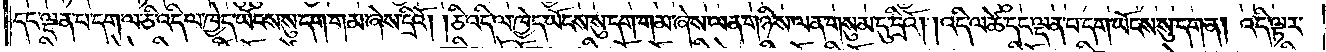དང་ལྡན་པ་དག་ལ་ཅི་འདི་ལ་ཁྱེད་ཡོངས་སུ་དག་གམ་ཞེས་དྲིའོ། །ཅི་འདི་ལ་ཁྱེད་ཡོངས་སུ་དག་གམ་ཞེས་ལན་གཉིས་ལན་གསུམ་དུ་དྲིའོ། །འདི་ལ་ཚེ་དང་ལྡན་པ་དག་ཡོངས་སུ་དག་ན། འདི་ལྟར་
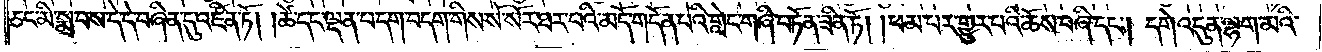ཅང་མི་སྨྲ་བས་དེ་དེ་བཞིན་དུ་འཛིན་ཏོ། །ཚེ་དང་ལྡན་པ་དག་བདག་གིས་སོ་སོར་ཐར་པའི་མདོ་གདོན་པའི་གླེང་གཞི་བཏོན་ཟིན་ཏོ། །ཕམ་པར་གྱུར་པའི་ཆོས་བཞི་དང༌། དགེ་འདུན་ལྷག་མའི་
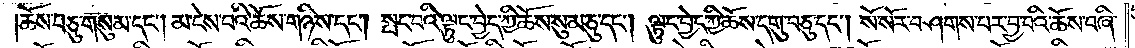ཆོས་བཅུ་གསུམ་དང༌། མ་ངེས་པའི་ཆོས་གཉིས་དང༌། སྤང་བའི་ལྟུང་བྱེད་ཀྱི་ཆོས་སུམ་ཅུ་དང༌། ལྟུང་བྱེད་ཀྱི་ཆོས་དགུ་བཅུ་དང༌། སོ་སོར་བཤགས་པར་བྱ་བའི་ཆོས་བཞི་
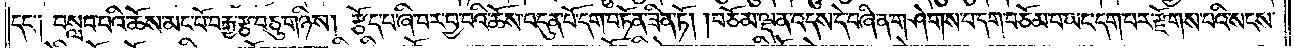དང༌། བསླབ་པའི་ཆོས་མང་པོ་བརྒྱ་རྩ་བཅུ་གཉིས། རྩོད་པ་ཞི་བར་བྱ་བའི་ཆོས་བདུན་པོ་དག་བཏོན་ཟིན་ཏོ། །བཅོམ་ལྡན་འདས་དེ་བཞིན་གཤེགས་པ་དགྲ་བཅོམ་པ་ཡང་དག་པར་རྫོགས་པའི་སངས་
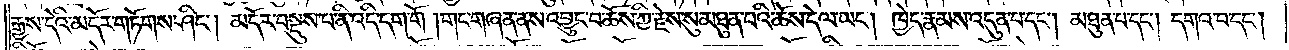རྒྱས་དེའི་མདོར་གཏོགས་ཤིང༌། མདོར་བསྡུས་པ་ནི་འདི་དག་གོ །གང་གཞན་ནས་འབྱུང་བ་ཆོས་ཀྱི་རྗེས་སུ་མཐུན་པའི་ཆོས་དེ་ལ་ཡང༌། ཁྱེད་རྣམས་འདུན་པ་དང༌། མཐུན་པ་དང༌། དགའ་བ་དང༌།
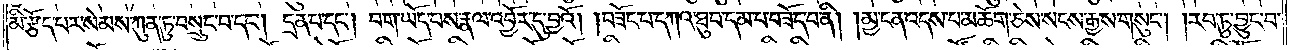མི་རྩོད་པར་སེམས་ཀུན་ཏུ་བསྲུང་བ་དང༌། དྲན་པ་དང༌། བག་ཡོད་པས་རྣལ་འབྱོར་དུ་བྱའོ། །བཟོད་པ་དཀའ་ཐུབ་དམ་པ་བཟོད་པ་ནི། །མྱ་ངན་འདས་པ་མཆོག་ཅེས་སངས་རྒྱས་གསུང༌། །རབ་ཏུ་བྱུང་བ་
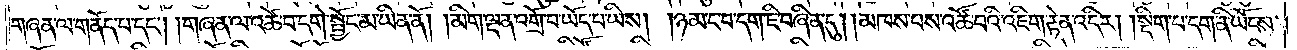གཞན་ལ་གནོད་པ་དང༌། །གཞན་ལ་འཚེ་བ་དགེ་སྦྱོང་མ་ཡིན་ནོ། །མིག་ལྡན་འགྲོ་བ་ཡོད་པ་ཡིས། །ཉམ་ང་བ་དག་ཇི་བཞིན་དུ། །མཁས་པས་འཚོ་བའི་འཇིག་རྟེན་འདིར། །སྡིག་པ་དག་ནི་ཡོངས་
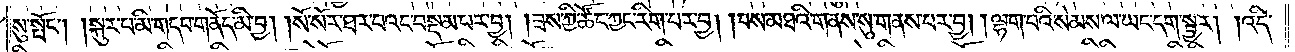སུ་སྤོང༌། །སྐུར་པ་མི་གདབ་གནོད་མི་བྱ། །སོ་སོར་ཐར་པའང་བསྡམ་པར་བྱ། །ཟས་ཀྱི་ཚོད་ཀྱང་རིག་པར་བྱ། །བས་མཐའི་གནས་སུ་གནས་པར་བྱ། །ལྷག་པའི་སེམས་ལ་ཡང་དག་སྦྱར། །འདི་
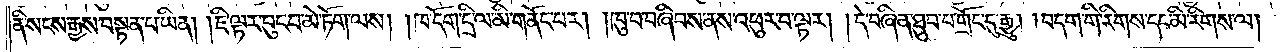ནི་སངས་རྒྱས་བསྟན་པ་ཡིན། །ཇི་ལྟར་བུང་བ་མེ་ཏོག་ལས། །ཁ་དོག་དྲིལ་མི་གནོང་པར། །ཁུ་བ་བཞིབས་ནས་འཕུར་བ་ལྟར། །དེ་བཞིན་ཐུབ་པ་གྲོང་དུ་རྒྱུ། །བདག་གི་རིགས་དང་མི་རིགས་ལ།
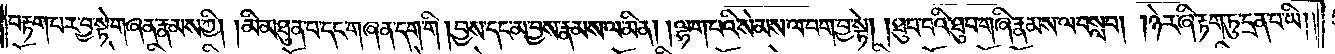བརྟག་པར་བྱ་སྟེ་གཞན་རྣམས་ཀྱི། །མི་མཐུན་པ་དང་གཞན་དག་གི །བྱས་དང་མ་བྱས་རྣམས་ལ་མིན། །ལྷག་པའི་སེམས་ལ་བག་བྱ་སྟེ། །ཐུབ་པའི་ཐུབ་གཞི་རྣམས་ལ་བསླབ། །ཉེར་ཞི་རྟག་ཏུ་དྲན་པ་ཡི༎
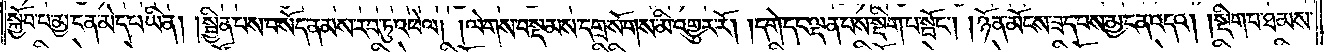སྐྱོབ་པ་མྱ་ངན་མེད་པ་ཡིན། །སྦྱིན་པས་བསོད་ནམས་རབ་ཏུ་འཕེལ། །ལེགས་བསྡམས་དགྲ་སོགས་མི་འགྱུར་རོ། །དགེ་དང་ལྡན་པས་སྡིག་པ་སྤོང༌། །ཉོན་མོངས་ཟད་པས་མྱ་ངན་འདའ། །སྡིག་པ་ཐམས་
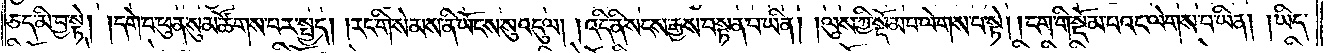ཅད་མི་བྱ་སྟེ། །དགེ་བ་ཕུན་སུམ་ཚོགས་པར་སྤྱད། །རང་གི་སེམས་ནི་ཡོངས་སུ་འདུལ། །འདི་ནི་སངས་རྒྱས་བསྟན་པ་ཡིན། །ལུས་ཀྱི་སྡོམ་པ་ལེགས་པ་སྟེ། །ངག་གི་སྡོམ་པའང་ལེགས་པ་ཡིན། །ཡིད་
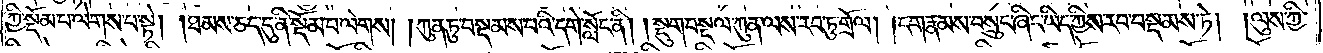ཀྱི་སྡོམ་པ་ལེགས་པ་སྟེ། །ཐམས་ཅད་དུ་ནི་སྡོམ་པ་ལེགས། །ཀུན་ཏུ་བསྡམས་པའི་དགེ་སློང་ནི། །སྡུག་བསྔལ་ཀུན་ལས་རབ་ཏུ་གྲོལ། །ངག་རྣམས་བསྲུང་ཞིང་ཡིད་ཀྱིས་རབ་བསྡམས་ཏེ། །ལུས་ཀྱི་
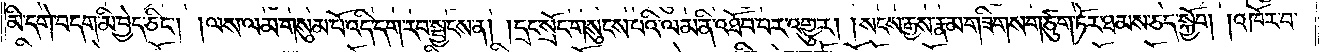མི་དགེ་བདག་མི་བྱེད་ཅིང༌། །ལས་ལམ་གསུམ་པོ་འདི་དག་རབ་སྦྱངས་ན། །དྲང་སྲོང་གསུངས་པའི་ལམ་མི་འཐོབ་པར་འགྱུར། །སངས་རྒྱས་རྣམ་གཟིགས་གཙུག་ཏོར་ཐམས་ཅད་སྐྱོབ། །འཁོར་བ་
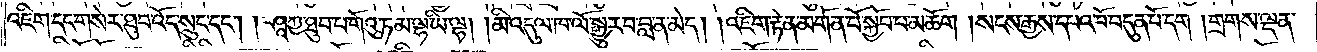འཇིག་དང་གསེར་ཐུབ་འོད་སྲུང་དང༌། །ཤཱཀྱ་ཐུབ་པ་གོའུ་ཏ་མ་ལྷ་ཡི་ལྷ། །མི་འདུལ་ཁ་ལོ་སྒྱུར་བ་བླ་ན་མེད། །འཇིག་རྟེན་མགོན་པོ་སྐྱོབ་པ་མཆོག །སངས་རྒྱས་དཔའ་བོ་བདུན་པོ་དག །གྲགས་ལྡན་
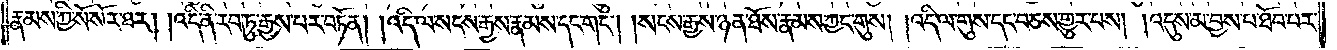རྣམས་ཀྱི་སོ་སོར་ཐར། །འདི་ནི་རབ་ཏུ་རྒྱས་པར་བཏོན། །འདི་ལ་སངས་རྒྱས་རྣམས་དང་གང༌། །སངས་རྒྱས་ཉན་ཐོས་རྣམས་ཀྱང་གུས། །འདི་ལ་གུས་དང་བཅས་གྱུར་པས། །འདུས་མ་བྱས་པ་ཐོབ་པར་
